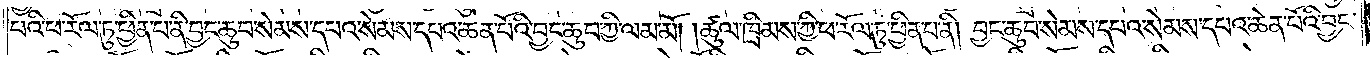པའི་ཕ་རོལ་ཏུ་ཕྱིན་པ་ནི་བྱང་ཆུབ་སེམས་དཔའ་སེམས་དཔའ་ཆེན་པོའི་བྱང་ཆུབ་ཀྱི་ལམ་མོ། །ཚུལ་ཁྲིམས་ཀྱི་ཕ་རོལ་ཏུ་ཕྱིན་པ་ནི། བྱང་ཆུབ་སེམས་དཔའ་སེམས་དཔའ་ཆེན་པོའི་བྱང་
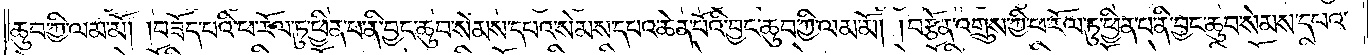ཆུབ་ཀྱི་ལམ་མོ། །བཟོད་པའི་ཕ་རོལ་ཏུ་ཕྱིན་པ་ནི་བྱང་ཆུབ་སེམས་དཔའ་སེམས་དཔའ་ཆེན་པོའི་བྱང་ཆུབ་ཀྱི་ལམ་མོ། །བརྩོན་འགྲུས་ཀྱི་ཕ་རོལ་ཏུ་ཕྱིན་པ་ནི་བྱང་ཆུབ་སེམས་དཔའ་
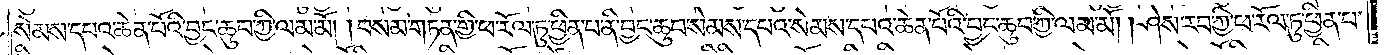སེམས་དཔའ་ཆེན་པོའི་བྱང་ཆུབ་ཀྱི་ལམ་མོ། །བསམ་གཏན་གྱི་ཕ་རོལ་ཏུ་ཕྱིན་པ་ནི་བྱང་ཆུབ་སེམས་དཔའ་སེམས་དཔའ་ཆེན་པོའི་བྱང་ཆུབ་ཀྱི་ལམ་མོ། །ཤེས་རབ་ཀྱི་ཕ་རོལ་ཏུ་ཕྱིན་པ་
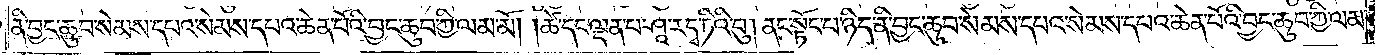ནི་བྱང་ཆུབ་སེམས་དཔའ་སེམས་དཔའ་ཆེན་པོའི་བྱང་ཆུབ་ཀྱི་ལམ་མོ། །ཚེ་དང་ལྡན་པ་ཤཱ་ར་དྭ་ཏིའི་བུ། ནང་སྟོང་པ་ཉིད་ནི། བྱང་ཆུབ་སེམས་དཔའ་སེམས་དཔའ་ཆེན་པོའི་བྱང་ཆུབ་ཀྱི་ལམ་
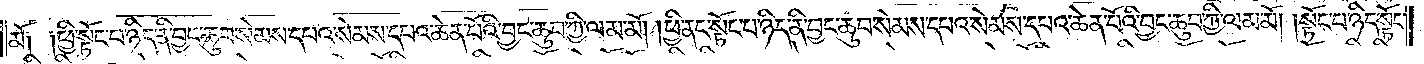མོ༏ ༏ཕྱི་སྟོང་པ་ཉིད་ནི་བྱང་ཆུབ་སེམས་དཔའ་སེམས་དཔའ་ཆེན་པོའི་བྱང་ཆུབ་ཀྱི་ལམ་མོ། །ཕྱི་ནང་སྟོང་པ་ཉིད་ནི་བྱང་ཆུབ་སེམས་དཔའ་སེམས་དཔའ་ཆེན་པོའི་བྱང་ཆུབ་ཀྱི་ལམ་མོ། །སྟོང་པ་ཉིད་སྟོང་
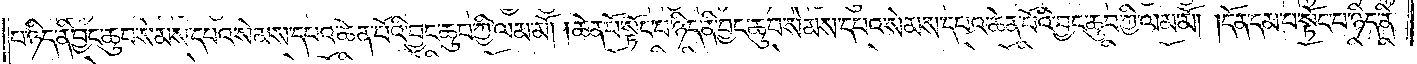པ་ཉིད་ནི་བྱང་ཆུབ་སེམས་དཔའ་སེམས་དཔའ་ཆེན་པོའི་བྱང་ཆུབ་ཀྱི་ལམ་མོ། །ཆེན་པོ་སྟོང་པ་ཉིད་ནི་བྱང་ཆུབ་སེམས་དཔའ་སེམས་དཔའ་ཆེན་པོའི་བྱང་ཆུབ་ཀྱི་ལམ་མོ། །དོན་དམ་པ་སྟོང་པ་ཉིད་ནི་
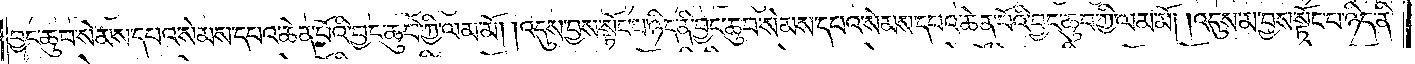བྱང་ཆུབ་སེམས་དཔའ་སེམས་དཔའ་ཆེན་པོའི་བྱང་ཆུབ་ཀྱི་ལམ་མོ། །འདུས་བྱས་སྟོང་པ་ཉིད་ནི་བྱང་ཆུབ་སེམས་དཔའ་སེམས་དཔའ་ཆེན་པོའི་བྱང་ཆུབ་ཀྱི་ལམ་མོ། །འདུས་མ་བྱས་སྟོང་པ་ཉིད་ནི་
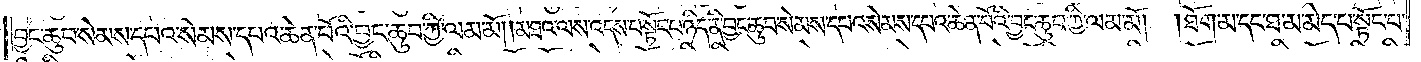བྱང་ཆུབ་སེམས་དཔའ་སེམས་དཔའ་ཆེན་པོའི་བྱང་ཆུབ་ཀྱི་ལམ་མོ། །མཐའ་ལས་འདས་པ་སྟོང་པ་ཉིད་ནི་བྱང་ཆུབ་སེམས་དཔའ་སེམས་དཔའ་ཆེན་པོའི་བྱང་ཆུབ་ཀྱི་ལམ་མོ། །ཐོག་མ་དང་ཐ་མ་མེད་པ་སྟོང་པ་
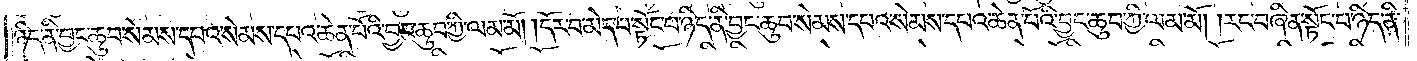ཉིད་ནི་བྱང་ཆུབ་སེམས་དཔའ་སེམས་དཔའ་ཆེན་པོའི་བྱང་ཆུབ་ཀྱི་ལམ་མོ། །དོར་བ་མེད་པ་སྟོང་པ་ཉིད་ནི་བྱང་ཆུབ་སེམས་དཔའ་སེམས་དཔའ་ཆེན་པོའི་བྱང་ཆུབ་ཀྱི་ལམ་མོ། །རང་བཞིན་སྟོང་པ་ཉིད་ནི་
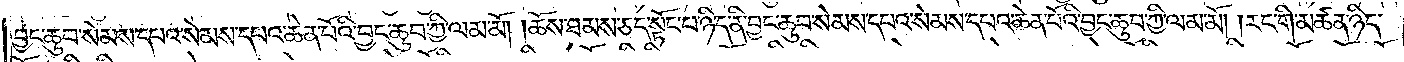བྱང་ཆུབ་སེམས་དཔའ་སེམས་དཔའ་ཆེན་པོའི་བྱང་ཆུབ་ཀྱི་ལམ་མོ། །ཆོས་ཐམས་ཅད་སྟོང་པ་ཉིད་ནི་བྱང་ཆུབ་སེམས་དཔའ་སེམས་དཔའ་ཆེན་པོའི་བྱང་ཆུབ་ཀྱི་ལམ་མོ། །རང་གི་མཚན་ཉིད་
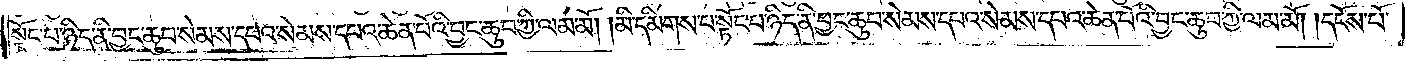སྟོང་པ་ཉིད་ནི་བྱང་ཆུབ་སེམས་དཔའ་སེམས་དཔའ་ཆེན་པོའི་བྱང་ཆུབ་ཀྱི་ལམ་མོ། །མི་དམིགས་པ་སྟོང་པ་ཉིད་ནི་བྱང་ཆུབ་སེམས་དཔའ་སེམས་དཔའ་ཆེན་པོའི་བྱང་ཆུབ་ཀྱི་ལམ་མོ། །དངོས་པོ་
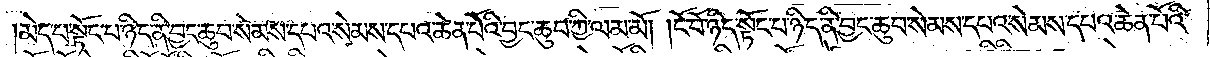མེད་པ་སྟོང་པ་ཉིད་ནི་བྱང་ཆུབ་སེམས་དཔའ་སེམས་དཔའ་ཆེན་པོའི་བྱང་ཆུབ་ཀྱི་ལམ་མོ། །ངོ་བོ་ཉིད་སྟོང་པ་ཉིད་ནི་བྱང་ཆུབ་སེམས་དཔའ་སེམས་དཔའ་ཆེན་པོའི་
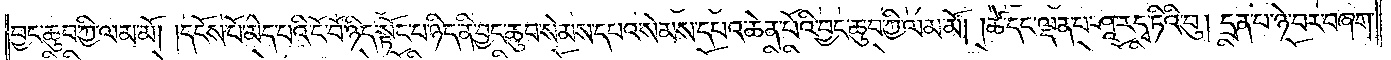བྱང་ཆུབ་ཀྱི་ལམ་མོ། །དངོས་པོ་མེད་པའི་ངོ་བོ་ཉིད་སྟོང་པ་ཉིད་ནི་བྱང་ཆུབ་སེམས་དཔའ་སེམས་དཔའ་ཆེན་པོའི་བྱང་ཆུབ་ཀྱི་ལམ་མོ། །ཚེ་དང་ལྡན་པ་ཤཱ་ར་དྭ་ཏིའི་བུ། དྲན་པ་ཉེ་བར་བཞག་
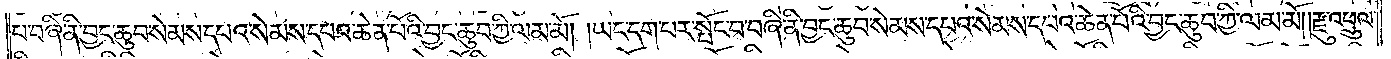པ་བཞི་ནི་བྱང་ཆུབ་སེམས་དཔའ་སེམས་དཔའ་ཆེན་པོའི་བྱང་ཆུབ་ཀྱི་ལམ་མོ། །ཡང་དག་པར་སྤོང་བ་བཞི་ནི་བྱང་ཆུབ་སེམས་དཔའ་སེམས་དཔའ་ཆེན་པོའི་བྱང་ཆུབ་ཀྱི་ལམ་མོ། །རྫུ་འཕྲུལ་
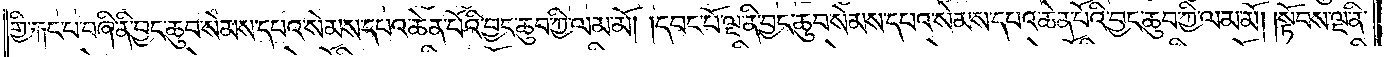གྱི་རྐང་པ་བཞི་ནི་བྱང་ཆུབ་སེམས་དཔའ་སེམས་དཔའ་ཆེན་པོའི་བྱང་ཆུབ་ཀྱི་ལམ་མོ། །དབང་པོ་ལྔ་ནི་བྱང་ཆུབ་སེམས་དཔའ་སེམས་དཔའ་ཆེན་པོའི་བྱང་ཆུབ་ཀྱི་ལམ་མོ། །སྟོབས་ལྔ་ནི་
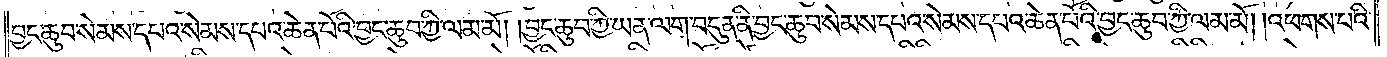བྱང་ཆུབ་སེམས་དཔའ་སེམས་དཔའ་ཆེན་པོའི་བྱང་ཆུབ་ཀྱི་ལམ་མོ། །བྱང་ཆུབ་ཀྱི་ཡན་ལག་བདུན་ནི་བྱང་ཆུབ་སེམས་དཔའ་སེམས་དཔའ་ཆེན་པོའི་བྱང་ཆུབ་ཀྱི་ལམ་མོ། །འཕགས་པའི་
